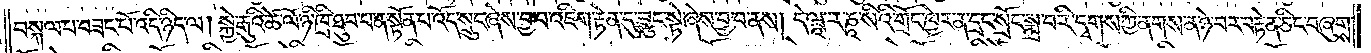བསྐལ་པ་བཟང་པོ་འདི་ཉིད་ལ། སྐྱེ་རྒུའི་ཚེ་ལོ་ཉི་ཁྲི་ཐུབ་པ་ན་སྟོན་པ་འོད་སྲུང་ཞེས་བྱ་བ་འཇིག་རྟེན་དུ་བྱུང་སྟེ་ཞེས་བྱ་བ་ནས། དེ་ཝཱ་ར་ཎཱ་སིའི་གྲོང་ཁྱེར་ན་དྲང་སྲོང་སྨྲ་བ་རི་དྭགས་ཀྱི་ནགས་ན་ཉེ་བར་བརྟེན་ཅིང་བཞུགས་
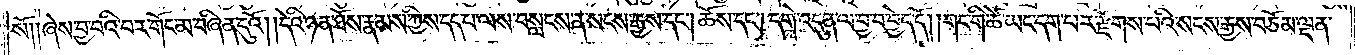སོ། །ཞེས་བྱ་བའི་བར་གོང་མ་བཞིན་དུའོ། །དེའི་ཉན་ཐོས་རྣམས་ཀྱི་དད་པ་ལས་བསླངས་ན་སངས་རྒྱས་དང༌། ཆོས་དང༌། དགེ་འདུན་ལ་བྱ་བ་བྱེད་དོ། །གང་གི་ཚེ་ཡང་དག་པར་རྫོགས་པའི་སངས་རྒྱས་བཅོམ་ལྡན་
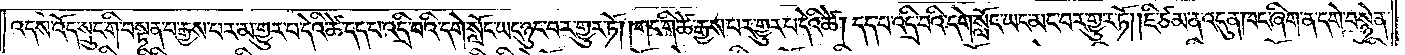འདས་འོད་སྲུང་གི་བསྟན་པ་རྒྱས་པར་མ་གྱུར་པ་དེའི་ཚེ་དད་པ་འདྲི་བའི་དགེ་སློང་ཡང་ཉུང་བར་གྱུར་ཏོ། །གང་གི་ཚེ་རྒྱས་པར་གྱུར་པ་དེའི་ཚེ། དད་པ་འདྲི་བའི་དགེ་སློང་ཡང་མང་བར་གྱུར་ཏོ། །ཇི་ཙམ་ན་འདུན་ཁང་ཞིག་ན་དགེ་བསྙེན་
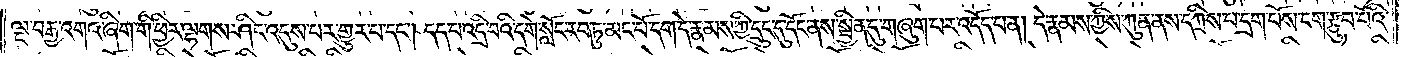ལྔ་བརྒྱ་འགའ་ཞིག་གི་ཕྱིར་ལྷགས་ཤིང་འདུས་པར་གྱུར་པ་དང༌། དད་པ་འདྲི་བའི་དགེ་སློང་རབ་ཏུ་མང་པོ་དག་དེ་རྣམས་ཀྱི་དྲུང་དུ་དོང་ནས་སྦྱིན་དུ་གཞུག་པར་འདོད་པ་ན། དེ་རྣམས་ཀྱིས་ཀུན་ནས་དཀྲིས་པ་དྲག་པོས་ངག་རྩུབ་པོའི་
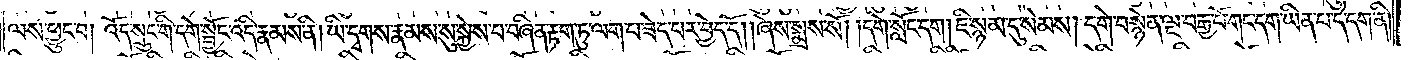ལས་ཕྱུང་བ། འོད་སྲུང་གི་དགེ་སྦྱོང་འདི་རྣམས་ནི། ཡི་དྭགས་རྣམས་སུ་སྐྱེས་པ་བཞིན་རྟག་ཏུ་ལག་པ་ཟེད་པར་བྱེད་དོ། །ཞེས་སྨྲས་སོ། །དགེ་སློང་དག །ཇི་སྙམ་དུ་སེམས། དགེ་བསྙེན་ལྔ་བརྒྱ་པོ་གང་དག་ཡིན་པ་དེ་དག་ནི།
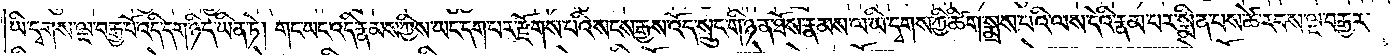ཡི་དྭགས་ལྔ་བརྒྱ་པོ་འདི་དག་ཉིད་ཡིན་ཏེ། གང་ཡང་འདི་རྣམས་ཀྱིས་ཡང་དག་པར་རྫོགས་པའི་སངས་རྒྱས་འོད་སྲུང་གི་ཉན་ཐོས་རྣམས་ལ་ཡི་དྭགས་ཀྱི་ཚིག་སྨྲས་པའི་ལས་དེའི་རྣམ་པར་སྨིན་པས་ཚེ་རབས་ལྔ་བརྒྱར་
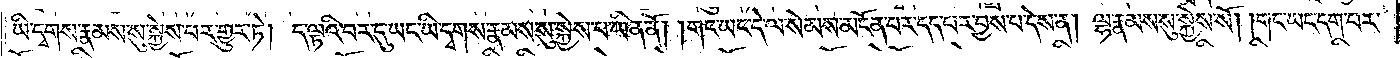ཡི་དྭགས་རྣམས་སུ་སྐྱེས་པར་གྱུར་ཏེ། ད་ལྟའི་བར་དུ་ཡང་ཡི་དྭགས་རྣམས་སུ་སྐྱེས་པ་ཡིན་ནོ། །གང་ཡང་དེ་ལ་སེམས་མངོན་པར་དད་པར་བྱས་པ་དེས་ན། ལྷ་རྣམས་སུ་སྐྱེས་སོ། །གང་ཡང་དག་པར་
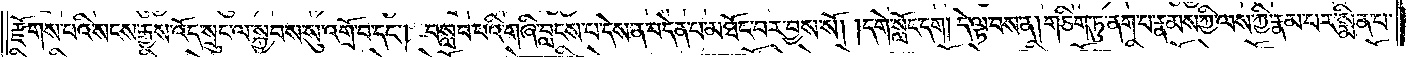རྫོགས་པའི་སངས་རྒྱས་འོད་སྲུང་ལ་སྐྱབས་སུ་འགྲོ་བ་དང༌། བསླབ་པའི་གཞི་བླངས་པ་དེས་ན་བདེན་པ་མཐོང་བར་བྱས་སོ། །དགེ་སློང་དག །དེ་ལྟ་བས་ན། གཅིག་ཏུ་ནག་པ་རྣམས་ཀྱི་ལས་ཀྱི་རྣམ་པར་སྨིན་པ་
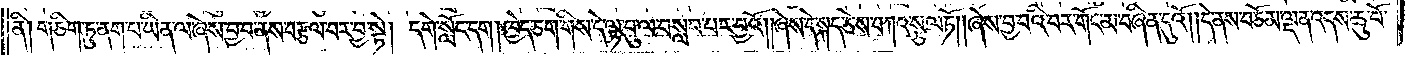ནི། གཅིག་ཏུ་ནག་པ་ཡིན་ལ་ཞེས་བྱ་བ་ནས་བརྩལ་བར་བྱ་སྟེ། དགེ་སློང་དག །ཁྱེད་ཅག་གིས་དེ་ལྟ་བུ་ལ་བསླབ་པར་བྱའོ། །ཞེས་དེ་སྐད་ཅེས་བཀའ་སྩལ་ཏོ། །ཞེས་བྱ་བའི་བར་གོང་མ་བཞིན་དུའོ། །དེ་ནས་བཅོམ་ལྡན་འདས་ཆུ་བོ་
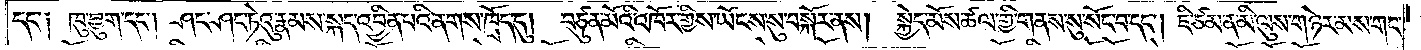དང༌། ཁུ་བྱུག་དང༌། ཤང་ཤང་ཏེའུ་རྣམས་སྐད་འབྱིན་པའི་ནགས་ཁྲོད་དུ།<gap>བཙུན་མོའི་འཁོར་གྱིས་ཡོངས་སུ་བསྐོར་ནས།<gap>སྐྱེད་མོས་ཚལ་གྱི་གནས་སུ་སོང་བ་དང༌། ཇི་ཙམ་ན་མི་ལུས་གཉེར་མས་གང་
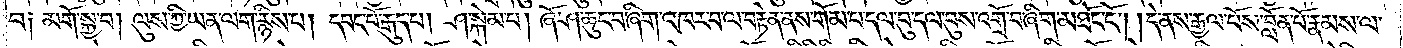བ། མགོ་སྐྱ་བ། ལུས་ཀྱི་ཡན་ལག་རྙིས་པ། དབང་པོ་རྒུད་པ། ཤ་སྐེམ་པ། ཞོ་ཤ་ཆུང་བ་ཞིག་འཁར་བ་ལ་བརྟེན་ནས་གོམ་པ་དལ་བུ་དལ་བུས་འགྲོ་བ་ཞིག་མཐོང་ངོ༌། །དེ་ནས་རྒྱལ་པོས་བློན་པོ་རྣམས་ལ་
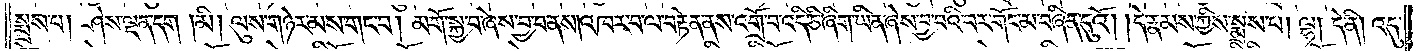སྨྲས་པ། ཤེས་ལྡན་དག །མི། ལུས་གཉེར་མས་གང་བ། མགོ་སྐྱ་བ་ཞེས་བྱ་བ་ནས། འཁར་བ་ལ་བརྟེན་ནས་འགྲོ་བ་འདི་ཅི་ཞིག་ཡིན་ཞེས་བྱ་བའི་བར་གོང་མ་བཞིན་དུའོ། །དེ་རྣམས་ཀྱིས་སྨྲས་པ། ལྷ། དེ་ནི། འདུ་
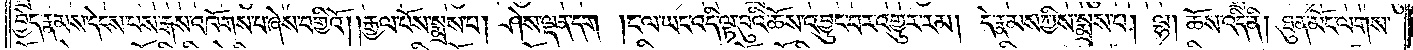བྱེད་རྣམས་དེངས་པས་རྒས་འཁོགས་པ་ཞེས་བགྱིའོ། །རྒྱལ་པོས་སྨྲས་པ། ཤེས་ལྡན་དག །ང་ལ་ཡང་འདི་ལྟ་བུའི་ཆོས་འབྱུང་བར་འགྱུར་རམ། དེ་རྣམས་ཀྱིས་སྨྲས་པ། ལྷ། ཆོས་འདི་ནི། ཐུན་མོང་ལགས་
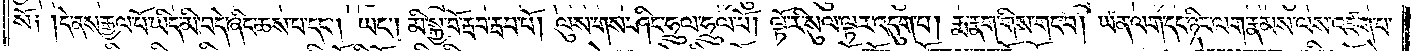སོ། །དེ་ནས་རྒྱལ་པོ་ཡིད་མི་བདེ་ཞིང་ཆས་པ་དང༌། ཡང༌། མི་སྐྱ་བོ་རྦབ་རྦབ་པོ། ལུས་གས་ཤིང་ཧྲུལ་ཧྲུལ་པོ། ལྟོ་རི་སུལ་ལྟར་འདུག་པ། རྨ་རྣག་གིས་གང་བ། ཡན་ལག་དང་ཉིང་ལག་རྣམས་ལས་འཛག་པ་
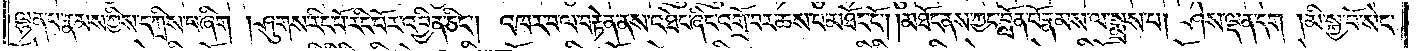ལྷན་པ་རྣམས་ཀྱིས་དཀྲིས་པ་ཞིག །ཤུགས་རིང་པོ་རིང་པོར་འབྱིན་ཅིང༌། འཁར་བ་ལ་བརྟེན་ནས་འཐེང་ཞིང་འགྲོ་བར་ཆས་པ་མཐོང་ངོ༌། །མཐོང་ནས་ཀྱང་བློན་པོ་རྣམས་ལ་སྨྲས་པ། ཤེས་ལྡན་དག །མི་སྐྱ་བོ་སེང་
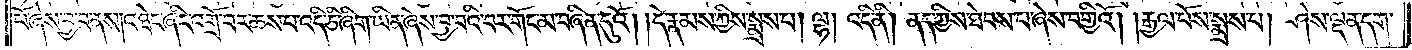པོ་ཞེས་བྱ་བ་ནས། འཐེང་ཞིང་འགྲོ་བར་ཆས་པ་འདི་ཅི་ཞིག་ཡིན་ཞེས་བྱ་བའི་བར་གོང་མ་བཞིན་དུའོ། །དེ་རྣམས་ཀྱིས་སྨྲས་པ། ལྷ། འདི་ནི། ནད་ཀྱིས་ཐེབས་པ་ཞེས་བགྱིའོ། །རྒྱལ་པོས་སྨྲས་པ། ཤེས་ལྡན་དག་
